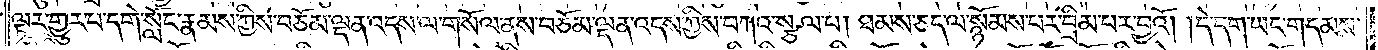ལྟར་གྱུར་པ་དགེ་སློང་རྣམས་ཀྱིས་བཅོམ་ལྡན་འདས་ལ་གསོལ་ནས་བཅོམ་ལྡན་འདས་ཀྱིས་བཀའ་སྩལ་པ། ཐམས་ཅད་ལ་སྙོམས་པར་བྲིམ་པར་བྱའོ། །དེ་དག་ཡང་གདམས་
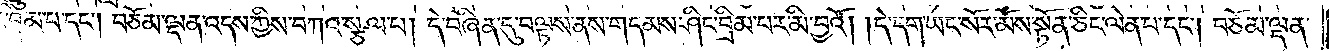ཤིང་བྲིམ་པ་དང༌། བཅོམ་ལྡན་འདས་ཀྱིས་བཀའ་སྩལ་པ། དེ་བཞིན་དུ་བལྟས་ནས་གདམས་ཤིང་བྲིམ་པར་མི་བྱའོ། །དེ་དག་ཡང་སོར་མོས་སྟོན་ཅིང་ལེན་པ་དང༌། བཅོམ་ལྡན་
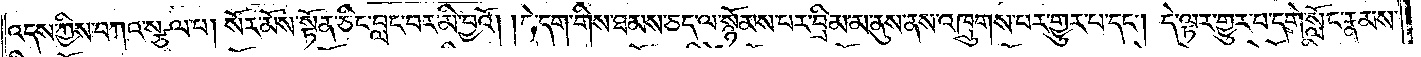འདས་ཀྱིས་བཀའ་སྩལ་པ། སོར་མོས་སྟོན་ཅིང་བླང་བར་མི་བྱའོ། །དེ་དག་གིས་ཐམས་ཅད་ལ་སྙོམས་པར་བྲིམ་མ་ནུས་ནས་འཁྲུགས་པར་གྱུར་པ་དང༌། དེ་ལྟར་གྱུར་པ་དགེ་སློང་རྣམས་
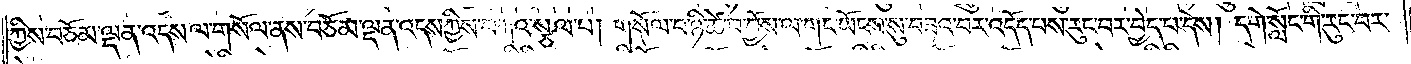ཀྱིས་བཅོམ་ལྡན་འདས་ལ་གསོལ་ནས་བཅོམ་ལྡན་འདས་ཀྱིས་བཀའ་སྩལ་པ། གསོལ་བ་ཉི་ཚེ་བ་བྱོས་ལ་གང་ཡོངས་སུ་བཟའ་བར་འདོད་པས་རུང་བར་བྱེད་པ་དེས། དགེ་སློང་གི་རུང་བར་
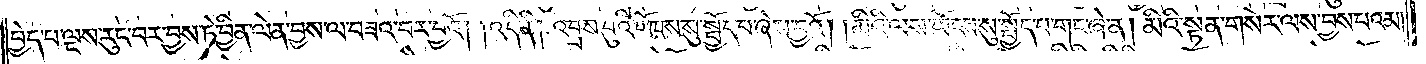བྱེད་པ་ལྔས་རུང་བར་བྱས་ཏེ་བྱིན་ལེན་བྱས་ལ་བཟའ་བར་བྱའོ། །འདི་ནི། འབྲས་བུའི་ཡོངས་སུ་སྤྱོད་པ་ཞེས་བྱའོ། །མིའི་ལས་ཡོངས་སུ་སྤྱོད་པ་གང་ཞེ་ན། མིའི་སྟན་གསེར་ལས་བྱས་པའམ༎
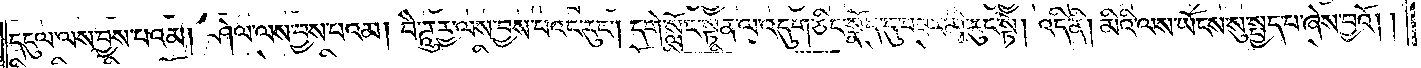དངུལ་ལས་བྱས་པའམ། ཤེལ་ལས་བྱས་པའམ། བཻ་ཌཱུརྱ་ལས་བྱས་པའང་རུང༌། དགེ་སློང་སྟན་ལ་འདུག་ཅིང་སྣོད་དུ་བཟར་མི་རུང་སྟེ། འདི་ནི། མིའི་ལས་ཡོངས་སུ་སྤྱད་པ་ཞེས་བྱའོ། །
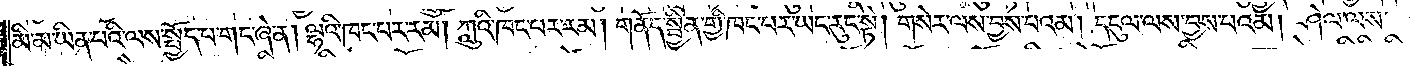མི་མ་ཡིན་པའི་ལས་སྤྱོད་པ་གང་ཞེ་ན། ལྷའི་ཁང་པར་རམ། ཀླུའི་ཁང་པར་རམ། གནོད་སྦྱིན་གྱི་ཁང་པར་ཡང་རུང་སྟེ། གསེར་ལས་བྱས་པའམ། དངུལ་ལས་བྱས་པའམ། ཤེལ་ལས་
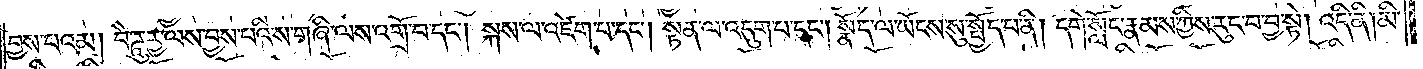བྱས་པའམ། བཻ་ཌཱུརྱ་ལས་བྱས་པའི་ས་གཞི་ལས་འགྲོ་བ་དང༌། སྐས་ལ་འཛེག་པ་དང༌། སྟན་ལ་འདུག་པ་དང༌། སྣོད་ལ་ཡོངས་སུ་སྤྱོད་པ་ནི། དགེ་སློང་རྣམས་ཀྱིས་རུང་བ་བྱ་སྟེ། འདི་ནི། མི་
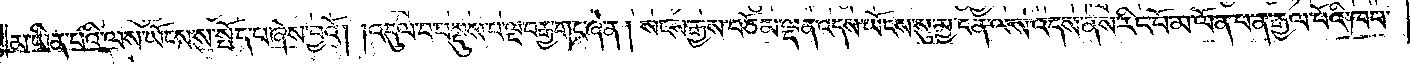མ་ཡིན་པའི་ལས་ཡོངས་སུ་སྤྱོད་པ་ཞེས་བྱའོ། །འདུལ་བ་བསྡུས་པ་ལྔ་བརྒྱ་གང་ཞེ་ན། སངས་རྒྱས་བཅོམ་ལྡན་འདས་ཡོངས་སུ་མྱ་ངན་ལས་འདས་ནས་རིང་པོ་མ་ལོན་པ་ན་རྒྱལ་པོའི་ཁབ་
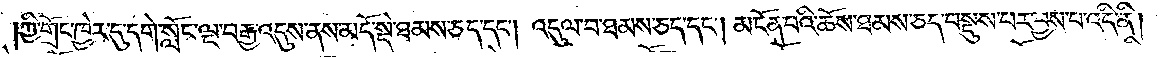ཀྱི་གྲོང་ཁྱེར་དུ་དགེ་སློང་ལྔ་བརྒྱ་འདུས་ནས་མདོ་སྡེ་ཐམས་ཅད་དང༌། འདུལ་བ་ཐམས་ཅད་དང༌། མངོན་པའི་ཆོས་ཐམས་ཅད་བསྡུས་པར་བྱས་པ་འདི་ནི།
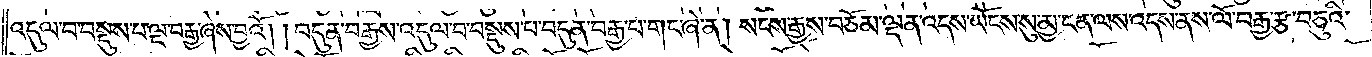འདུལ་བ་བསྡུས་པ་ལྔ་བརྒྱ་ཞེས་བྱའོ། །བདུན་བརྒྱས་འདུལ་བ་བསྡུས་པ་བདུན་བརྒྱ་པ་གང་ཞེ་ན། སངས་རྒྱས་བཅོམ་ལྡན་འདས་ཡོངས་སུ་མྱ་ངན་ལས་འདས་ནས་ལོ་བརྒྱ་རྩ་བཅུའི་
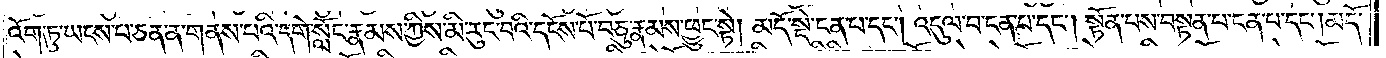འོག་ཏུ་ཡངས་པ་ཅན་ན་གནས་པའི་དགེ་སློང་རྣམས་ཀྱིས་མི་རུང་བའི་དངོས་པོ་བཅུ་རྣམས་ཕྱུང་སྟེ། མདོ་སྡེ་ངན་པ་དང༌། འདུལ་བ་ངན་པ་དང༌། སྟོན་པས་བསྟན་པ་ངན་པ་དང༌། མདོ་
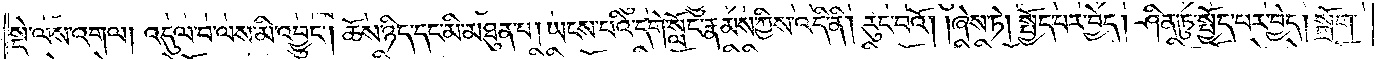སྡེ་ལས་འགལ། འདུལ་བ་ལས་མི་འབྱུང༌། ཆོས་ཉིད་དང་མི་མཐུན་པ། ཡངས་པའི་དགེ་སློང་རྣམས་ཀྱིས་འདི་ནི། རུང་བའོ། །ཞེས་ཏེ། སྤྱོད་པར་བྱེད། ཤིན་ཏུ་སྤྱོད་པར་བྱེད། སྒྲོག་
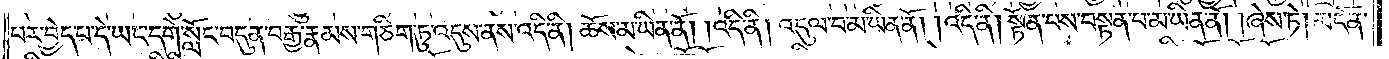པར་བྱེད་པ་དེ་ཡང་དགེ་སློང་བདུན་བརྒྱ་རྣམས་གཅིག་ཏུ་འདུས་ནས་འདི་ནི། ཆོས་མ་ཡིན་ནོ། །འདི་ནི། འདུལ་བ་མ་ཡིན་ནོ། །འདི་ནི། སྟོན་པས་བསྟན་པ་མ་ཡིན་ནོ། །ཞེས་ཏེ། མངོན་
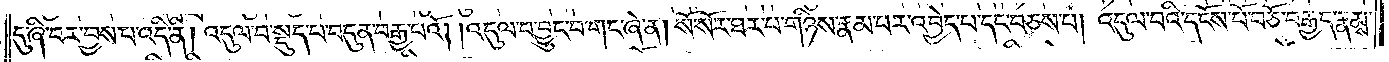དུ་ཞི་བར་བྱས་པ་འདི་ནི། འདུལ་བ་སྡུད་པ་བདུན་བརྒྱ་པའོ། །འདུལ་བ་བྱུང་བ་གང་ཞེ་ན། སོ་སོར་ཐར་པ་གཉིས་རྣམ་པར་འབྱེད་པ་དང་བཅས་པ། འདུལ་བའི་དངོས་པོ་བཅོ་བརྒྱད་རྣམས་
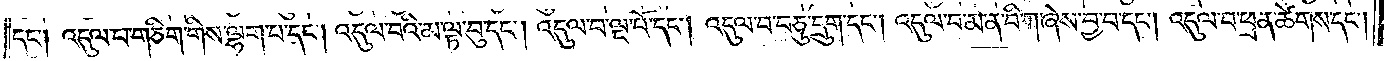དང༌། འདུལ་བ་གཅིག་གིས་ལྷག་པ་དང༌། འདུལ་བའི་མ་ལྟ་བུ་དང༌། འདུལ་བ་ལྔ་པོ་དང༌། འདུལ་བ་བཅུ་དྲུག་དང༌། འདུལ་བ་མ་ན་བི་ཀ་ཞེས་བྱ་བ་དང༌། འདུལ་བ་ཕྲན་ཚེགས་དང༌།
